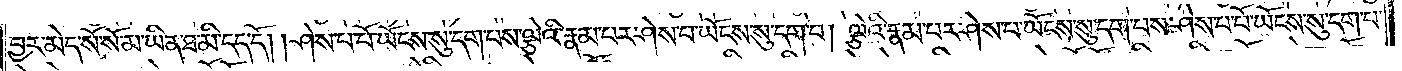བྱར་མེད་སོ་སོ་མ་ཡིན་ཐ་མི་དད་དོ། །ཤེས་པ་པོ་ཡོངས་སུ་དག་པས་ལྕེའི་རྣམ་པར་ཤེས་པ་ཡོངས་སུ་དག་པ། ལྕེའི་རྣམ་པར་ཤེས་པ་ཡོངས་སུ་དག་པས་ཤེས་པ་པོ་ཡོངས་སུ་དག་པ་
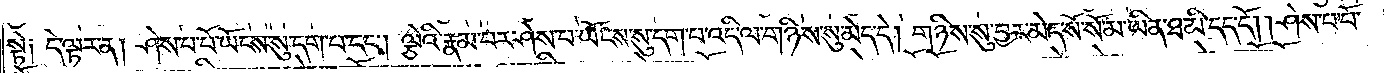སྟེ༑ དེ་ལྟར་ན། ཤེས་པ་པོ་ཡོངས་སུ་དག་པ་དང༌། ལྕེའི་རྣམ་པར་ཤེས་པ་ཡོངས་སུ་དག་པ་འདི་ལ་གཉིས་སུ་མེད་དེ། གཉིས་སུ་བྱར་མེད་སོ་སོ་མ་ཡིན་ཐ་མི་དད་དོ། །ཤེས་པ་པོ་
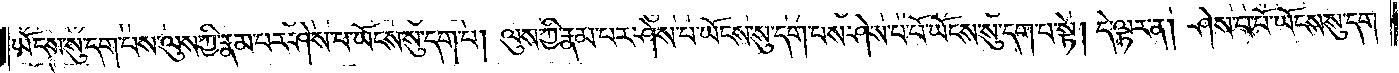ཡོངས་སུ་དག་པས་ལུས་ཀྱི་རྣམ་པར་ཤེས་པ་ཡོངས་སུ་དག་པ། ལུས་ཀྱི་རྣམ་པར་ཤེས་པ་ཡོངས་སུ་དག་པས་ཤེས་པ་པོ་ཡོངས་སུ་དག་པ་སྟེ། དེ་ལྟར་ན། ཤེས་པ་པོ་ཡོངས་སུ་དག་
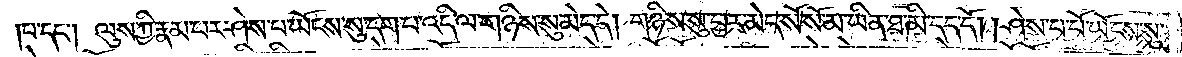པ་དང༌། ལུས་ཀྱི་རྣམ་པར་ཤེས་པ་ཡོངས་སུ་དག་པ་འདི་ལ་གཉིས་སུ་མེད་དེ། གཉིས་སུ་བྱར་མེད་སོ་སོ་མ་ཡིན་ཐ་མི་དད་དོ། །ཤེས་པ་པོ་ཡོངས་སུ་
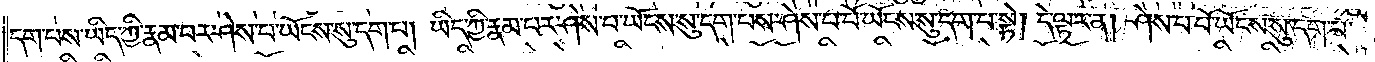དག་པས་ཡིད་ཀྱི་རྣམ་པར་ཤེས་པ་ཡོངས་སུ་དག་པ། ཡིད་ཀྱི་རྣམ་པར་ཤེས་པ་ཡོངས་སུ་དག་པས་ཤེས་པ་པོ་ཡོངས་སུ་དག་པ་སྟེ། དེ་ལྟར་ན། ཤེས་པ་པོ་ཡོངས་སུ་དག་པ་
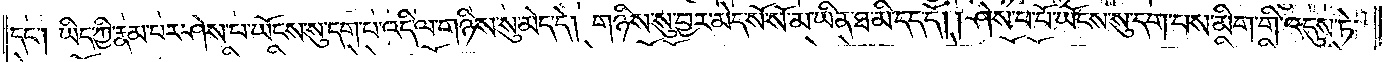དང༌། ཡིད་ཀྱི་རྣམ་པར་ཤེས་པ་ཡོངས་སུ་དག་པ་འདི་ལ་གཉིས་སུ་མེད་དེ། གཉིས་སུ་བྱར་མེད་སོ་སོ་མ་ཡིན་ཐ་མི་དད་དོ། །ཤེས་པ་པོ་ཡོངས་སུ་དག་པས་མིག་གི་འདུས་ཏེ་
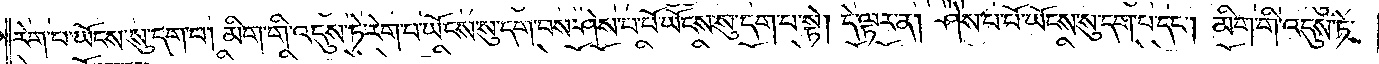རེག་པ་ཡོངས་སུ་དག་པ། མིག་གི་འདུས་ཏེ་རེག་པ་ཡོངས་སུ་དག་པས་ཤེས་པ་པོ་ཡོངས་སུ་དག་པ་སྟེ། དེ་ལྟར་ན། ཤེས་པ་པོ་ཡོངས་སུ་དག་པ་དང༌། མིག་གི་འདུས་ཏེ་
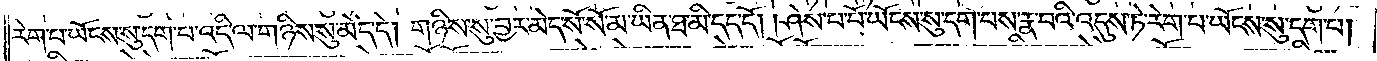རེག་པ་ཡོངས་སུ་དག་པ་འདི་ལ་གཉིས་སུ་མེད་དེ། གཉིས་སུ་བྱར་མེད་སོ་སོ་མ་ཡིན་ཐ་མི་དད་དོ། །ཤེས་པ་པོ་ཡོངས་སུ་དག་པས་རྣ་བའི་འདུས་ཏེ་རེག་པ་ཡོངས་སུ་དག་པ།
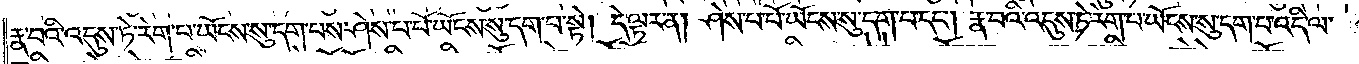རྣ་བའི་འདུས་ཏེ་རེག་པ་ཡོངས་སུ་དག་པས་ཤེས་པ་པོ་ཡོངས་སུ་དག་པ་སྟེ། དེ་ལྟར་ན། ཤེས་པ་པོ་ཡོངས་སུ་དག་པ་དང༌། རྣ་བའི་འདུས་ཏེ་རེག་པ་ཡོངས་སུ་དག་པ་འདི་ལ་
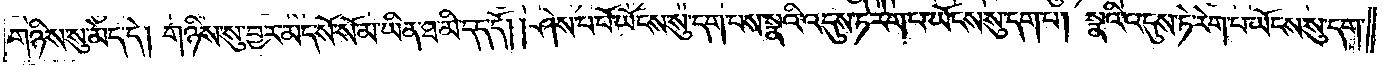གཉིས་སུ་མེད་དེ། གཉིས་སུ་བྱར་མེད་སོ་སོ་མ་ཡིན་ཐ་མི་དད་དོ། །ཤེས་པ་པོ་ཡོངས་སུ་དག་པས་སྣའི་འདུས་ཏེ་རེག་པ་ཡོངས་སུ་དག་པ། སྣའི་འདུས་ཏེ་རེག་པ་ཡོངས་སུ་དག་
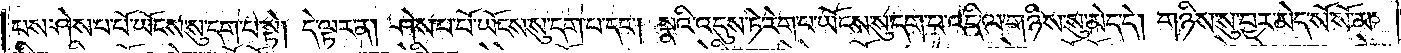པས་ཤེས་པ་པོ་ཡོངས་སུ་དག་པ་སྟེ། དེ་ལྟར་ན། ཤེས་པ་པོ་ཡོངས་སུ་དག་པ་དང༌། སྣའི་འདུས་ཏེ་རེག་པ་ཡོངས་སུ་དག་པ་འདི་ལ་གཉིས་སུ་མེད་དེ། གཉིས་སུ་བྱར་མེད་སོ་སོ་མ་
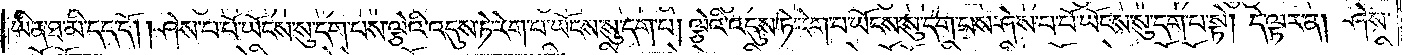ཡིན་ཐ་མི་དད་དོ། །ཤེས་པ་པོ་ཡོངས་སུ་དག་པས་ལྕེའི་འདུས་ཏེ་རེག་པ་ཡོངས་སུ་དག་པ། ལྕེའི་འདུས་ཏེ་རེག་པ་ཡོངས་སུ་དག་པས་ཤེས་པ་པོ་ཡོངས་སུ་དག་པ་སྟེ། དེ་ལྟར་ན། ཤེས་
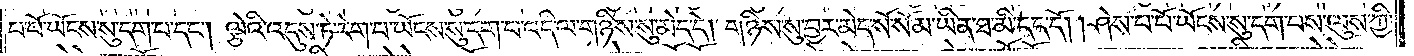པ་པོ་ཡོངས་སུ་དག་པ་དང༌། ལྕེའི་འདུས་ཏེ་རེག་པ་ཡོངས་སུ་དག་པ་འདི་ལ་གཉིས་སུ་མེད་དེ། གཉིས་སུ་བྱར་མེད་སོ་སོ་མ་ཡིན་ཐ་མི་དད་དོ། །ཤེས་པ་པོ་ཡོངས་སུ་དག་པས་ལུས་ཀྱི་
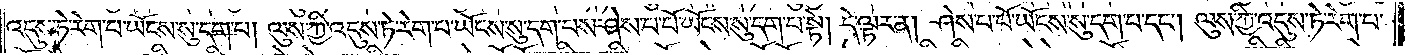འདུས་ཏེ་རེག་པ་ཡོངས་སུ་དག་པ། ལུས་ཀྱི་འདུས་ཏེ་རེག་པ་ཡོངས་སུ་དག་པས་ཤེས་པ་པོ་ཡོངས་སུ་དག་པ་སྟེ། དེ་ལྟར་ན། ཤེས་པ་པོ་ཡོངས་སུ་དག་པ་དང༌། ལུས་ཀྱི་འདུས་ཏེ་རེག་པ་
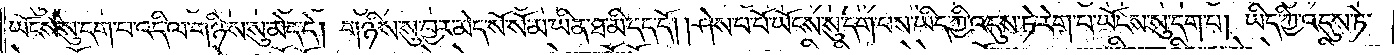ཡོངས་སུ་དག་པ་འདི་ལ་གཉིས་སུ་མེད་དེ། གཉིས་སུ་བྱར་མེད་སོ་སོ་མ་ཡིན་ཐ་མི་དད་དོ། །ཤེས་པ་པོ་ཡོངས་སུ་དག་པས་ཡིད་ཀྱི་འདུས་ཏེ་རེག་པ་ཡོངས་སུ་དག་པ། ཡིད་ཀྱི་འདུས་ཏེ་
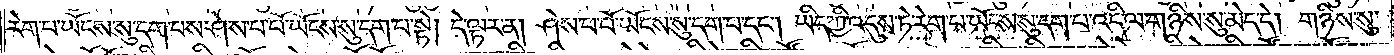རེག་པ་ཡོངས་སུ་དག་པས་ཤེས་པ་པོ་ཡོངས་སུ་དག་པ་སྟེ། དེ་ལྟར་ན། ཤེས་པ་པོ་ཡོངས་སུ་དག་པ་དང༌། ཡིད་ཀྱི་འདུས་ཏེ་རེག་པ་ཡོངས་སུ་དག་པ་འདི་ལ་གཉིས་སུ་མེད་དེ། གཉིས་སུ་
